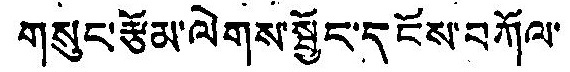གསུང་རྩོམ་ལེགས་སྦྱོང་དངོས་བཀོལ་
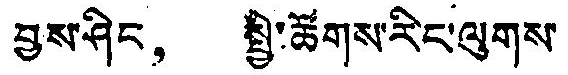བྱས་ཤིང， སྤྱི་ཚོགས་རིང་ལུགས་
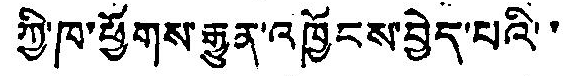ཀྱི་ཁ་ཕྱོགས་རྒྱུན་འཁྱོངས་བྱེད་པའི་་
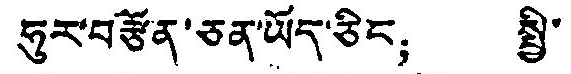ཧུར་བརྩོན་ཅན་ཡོད་ཅིང； སྤྱི་
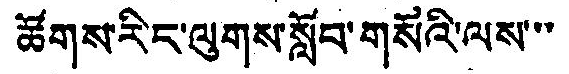ཚོགས་རིང་ལུགས་སློབ་གསོའི་ལས་་་
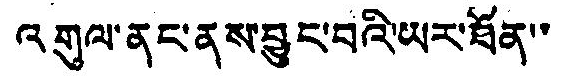འགུལ་ནང་ནས་བྱུང་བའི་ཡར་ཐོན་་
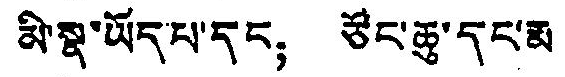མི་སྣ་ཡོད་པ་དང；ཙོང་ཆུ་དང་རྨ
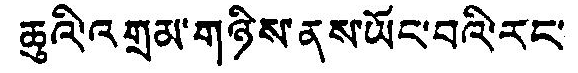ཆུའི་འགྲམ་གཉིས་ནས་ཡོང་བའི་རང་
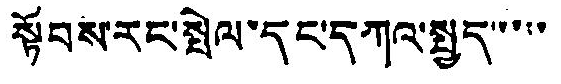སྟོབས་རང་སྤེལ་དང་དཀའ་སྤྱད་་་་་
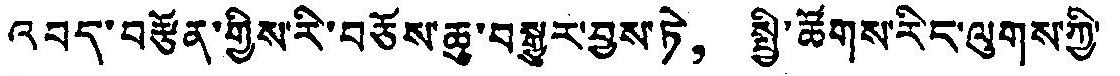འབད་བརྩོན་གྱིས་རི་བཅོས་ཆུ་བསྒྱུར་བྱས་ཏེ། སྤྱི་ཚོགས་རིང་ལུགས་ཀྱི་
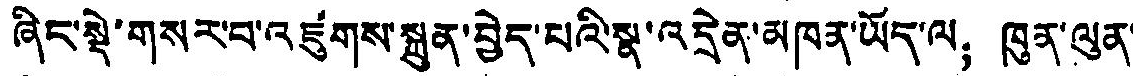ཞིང་སྡེ་གསར་བ་འཛུགས་སྐྲུན་བྱེད་པའི་སྣ་འདྲེན་མཁན་ཡོད་ལ；ཁུན་ལུན་
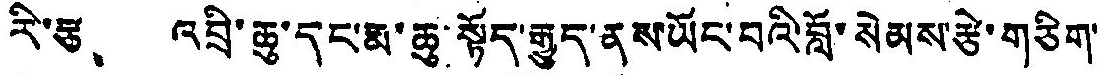རི་རྩ、 འབྲི་ཆུ་དང་རྨ་ཆུ་སྟོད་རྒྱུད་ནས་ཡོང་བའི་བློ་སེམས་རྩེ་གཅིག་
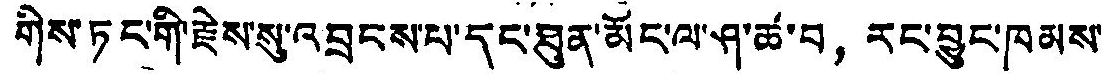གིས་ཏང་གི་རྗེས་སུ་འབྲངས་པ་དང་ཐུན་མོང་ལ་ཤ་ཚ་བ，རང་བྱུང་ཁམས་
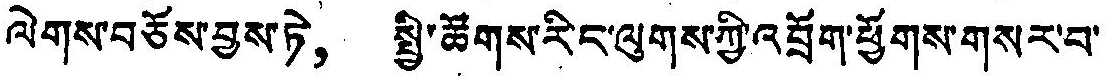ལེགས་བཅོས་བྱས་ཏེ， སྤྱི་ཚོགས་རིང་ལུགས་ཀྱི་འབྲོག་ཕྱོགས་གསར་བ་
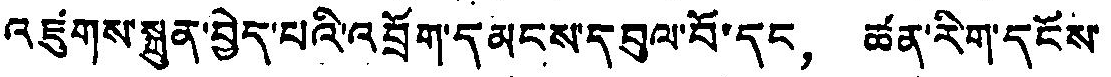འཛུགས་སྐྲུན་བྱེད་པའི་འབྲོག་དམངས་དབུལ་བོ་དང， ཚན་རིག་དངོས་
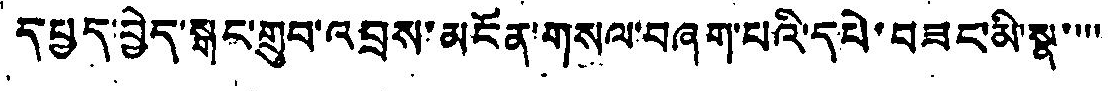དཔྱད་བྱེད་སྒང་གྲུབ་འབྲས་མངོན་གསལ་བཞག་པའི་དཔེ་བཟང་མི་སྣ་་་་
